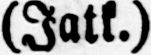(Jatk.)
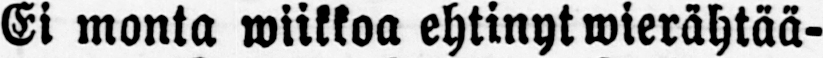Ei monta wiikkoa ehtinyt wierähtää-
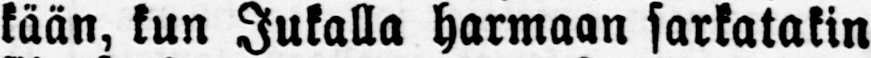kään, kun Jukalla harmaan sarkatakin
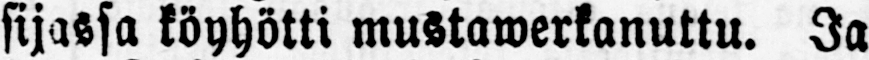sijassa köyhötti mustarwerkanuttu. Ja
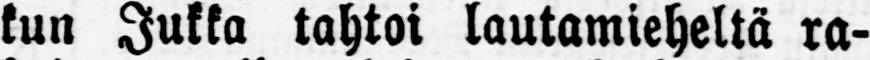kun Jukka tahtoi lautamieheltä ra-
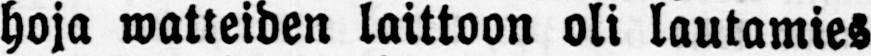hoja watteiden laittoon oli lautamies
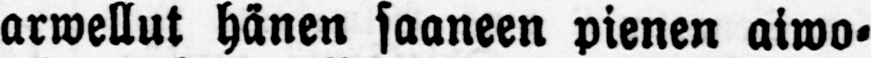arwellut hänen saaneen pienen aiwo-
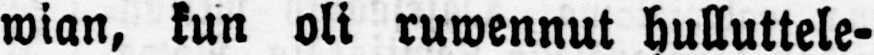wian, kun oli ruwennut hulluttele-
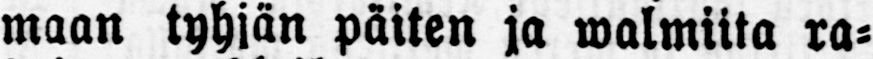maan tyhjän päiten ja walmiita ra-
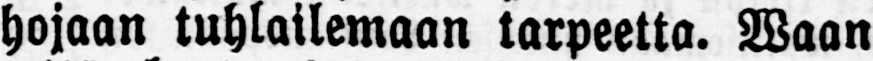hojaan tuhlailemaan tarpeetta. Waan
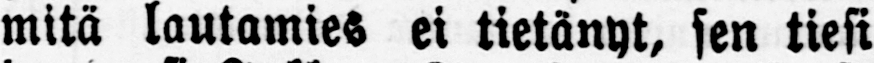mitä lautamies ei tietänyt, sen tiesi
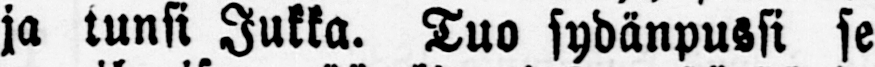ja tunsi Jukka. Tuo sydänpussi se
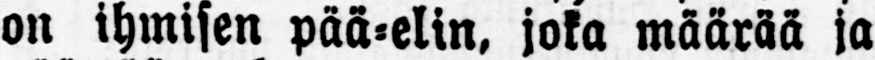on ihmisen pää-elin, joka määrää ja
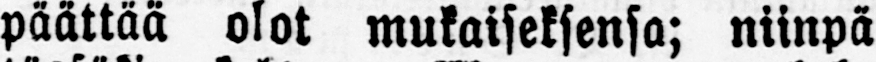päättää olot mukaiseksensa; niinpä
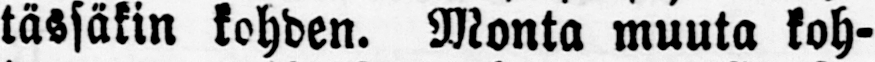tässäkin kohden. Monta muuta koh-
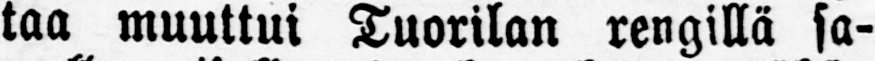taa muuttui Tuorilan rengillä sa-
